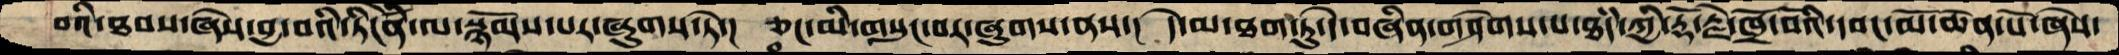བའི་ཐབས་ཞེས་བྱ་བའི་ཏིངེཛིན་ལ་སྙོམས་པར་ཞུགས་ཏེ་།  ཅང་མི་གསུང་བར་ཞུགས་ནས་།  དེ་མ་ཐག་ཏུ་དེ་བཞིན་གཤེགས་པ་ཐཾད་ཀྱི་རྡོ་རྗེ་ཁྲོ་བོའི་དབང་མོ་ཆེན་པོ་ཞེས་
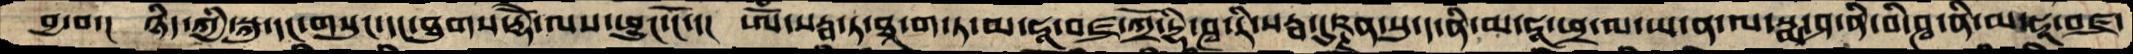བྱ་བ་།  ཉིད་ཀྱི་སྐུ་དང་གསུང་དང་ཐུགས་རྡོེ་ལས་ཕྱུང་ངོ་་།  ཨོཾ་སརྦ་ཏ་ཐཱ་ག་ཏ་མ་ཧཱ་བཛྲ་ཀྲོ་དྷི་ཤྭ་རི་སརྦ་དུཥྚན་སུ་ད་ནི་མ་ཧཱ་ཕྲ་མ་ཡ་ན་ལ་སྨ་ཤ་ནི་བི་ཤྭ་ནི་མ་ཧཱ་བཛྲ་
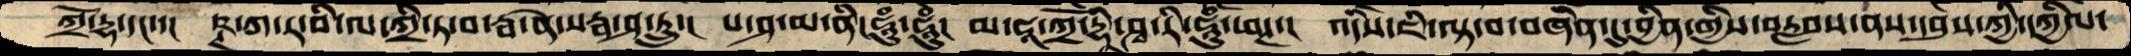ཀྲོ་དྷ་དང་།  ཥྚ་ཀ་ཏ་བི་ལ་ཀྲི་ཏ་བ་རྦ་ནེ་སརྦ་ཤ་ཏྲུང་།  པ་ཤ་མ་ནི་ཧཱུཾ་ཧཱུཾ།  མ་ཧ་ཱ་ཀྲོ་དྷཱི་ཤྭ་རི་ཧཱུཾ་ཕཊ་།  འདིས་ཇི་ལྟ་བ་བཞིན་དུ་བྱིན་གྱིས་བརླབས་ནས་དབུས་ཀྱི་དཀྱིལ་
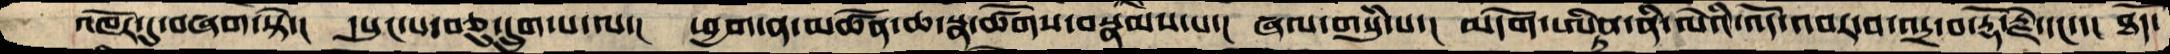འཁོར་དུ་བཞག་སྟེ་།  དཔུང་པ་བཅུ་དྲུག་པ་ལ་།  ཕྱག་ན་མཚོན་ཆ་སྣ་ཚོགས་བསྣམས་པ་།  ཞལ་གསུཾ་པ་། མདོག་ཨིནྡྲ་ནི་ལེའི་འདོ་འབར་བ་འདྲ་བ་རྡོ་རྗེ་དང་་། ཐཾད་
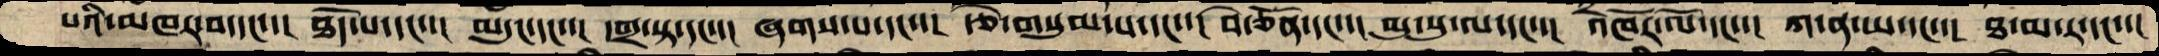པའི་མཁར་བ་དང་་།  ཐོད་པ་དང་་།  མདུང་དང་་།  དགྲ་སྟ་དང་་། ཞགས་པ་དང་་།  རྩེ་གསུམ་པ་དང་་།  བེ་ཅོན་དང་་།  མུ་སུ་ལ་དང་་། འཁོར་ལོ་དང་་།  ཀ་ན་ཡ་དང་་།  ཐ་མ་ར་དང་་།
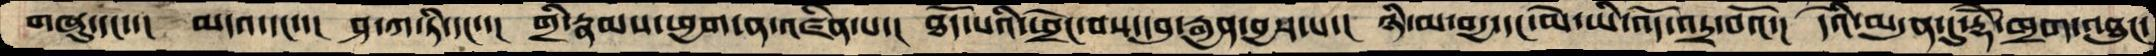གཞུ་དང་་།  མདའ་དང་་།  ཤ་ཀ་ཏི་དང་་།  གྲི་རྣམས་ཕྱག་ན་འཛིན་པ་།  ཐོད་པའི་ཕྲེང་བས་དབུ་རྒྱན་བྱས་པ་།  ཉི་མ་བདྱ་དང་མེ་ཡི་འོད་འདྲ་བའོ་།  དེའི་མདུན་དུ་རྡོེ་ཁྲག་འཐུང་
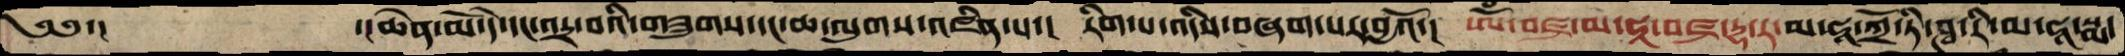༄༅་།    ་།ཆེན་མོ་དེ་དང་འདྲ་བའི་གཟུགས་དང་ཆ་ལུགས་འཛིན་པ་།  རིག་པ་འདིས་བཞག་པར་བྱའོ་།  ཨོཾ་བཛྲ་མ་ཧཱ་བཛྲ་དྷ་ར་མ་ཧཱ་ཀྲོ་ཏི་ཤྭ་རི་མ་ཧཱ་སྨ་
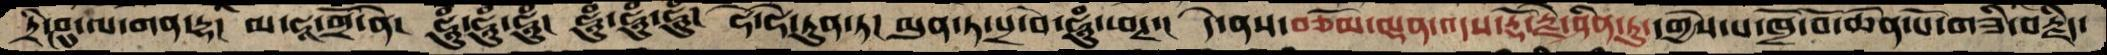ཏྲི་ཤུ་ལ་གན་དྷ།  མ་ཧཱ་གྲོ་ནེ་།  ཧཱུཾ་ཧཱུཾ་ཧཱུཾ་  ཧཱུཾ་ཧཱུཾ་ཧཱུཾ་ ཧེ་ཧེ་ཏུན་ཏ།  མུན་ཏ་པྲ་བེ་ཧཱུཾ་ཕཊ་།  དེ་ནས་བཅོམ་ལྡན་འདས་རྡོ་རྗེ་ཤིན་ཏུ་དགྱེས་པ་ཁྲོ་བོ་ཆེན་པོ་གཟི་བརྗིད་
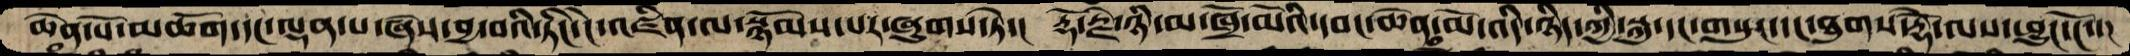ཆེན་པོ་མཆོག་དང་ལྡན་པ་ཞེས་བྱ་བའི་ཏིང་ངེ་འཛིན་ལ་སྙོམས་པར་ཞུགས་ཏེ་།  རྡོ་རྗེ་ཉི་མ་ཁྲོ་མོའི་དབང་ཆེན་མོ་འདི་ཉིད་ཀྱི་སྐུ་དང་གསུང་དང་ཐུགས་རྡོེ་ལས་ཕྱུང་ངོ་་།
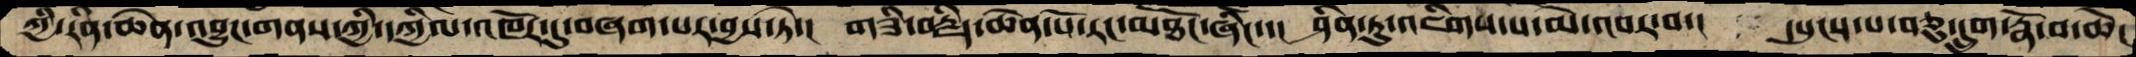ཀྱི་རིན་ཆེན་འབྱུང་གནས་ཀྱི་དཀྱིལ་འཁོར་དུ་བཞག་པར་བྱས་ཏེ་།  གཟི་བརྗིད་ཆེན་པོ་རང་མཐོང་ཞིང་་།  ཤིན་ཏུ་འཇིགས་པ་མེ་འབར་བ་།  དཔུངས་པ་བཅུ་དྲུག་རྣོ་བ་ཆེ།
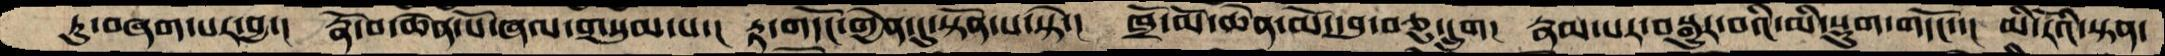ཏུ་བཞག་པར་བྱ་།  རྣོ་བ་ཆེན་པོ་ཞལ་གསུམ་པ་།  རྟ་གདོང་གྱེན་དུ་སྟོན་པ་སྟེ་།  ཁྲོ་མོ་ཆེན་མོ་དབུ་བཅུ་དྲུག།  རྣམ་པར་བསྒྱུར་བའི་མི་སྡུག་གདོང་་།  མི་རོའི་སྟན་
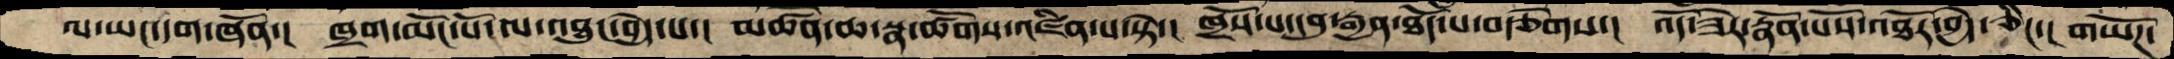ལ་ཡང་དག་ཞོན་།  ཁྲག་མོང་པོ་ལ་འཐུང་བྱདེ་པ་། མཚོན་ཆ་སྣ་ཚོགས་འཛིན་པ་སྟེ་། ཁྲོས་པ་དབུ་རྒྱན་ཐོད་པ་བརྩེགས་།  འོད་ཟེར་རྣོན་པོས་འཐོར་བྱེད་ཅིང་། གཡོཌ་
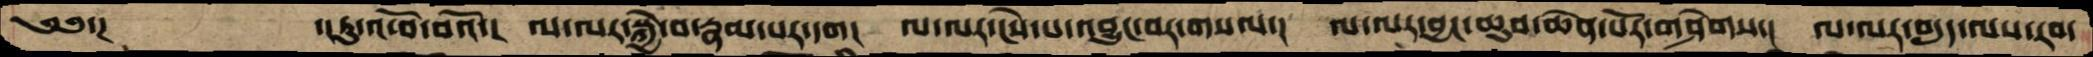༄༅་།    ་།ཏུ་འཕོ་བའོ་།  ལ་ལར་སྐྱེ་བ་རྣམ་པར་དག།  ལ་ལར་ངེས་པ་འབྱུང་བར་གསལ་།  ལ་ལར་བྱང་ཆུབ་ཆེན་པོར་གཤེགས་།  ལ་ལར་བདུད་ལས་རབ་
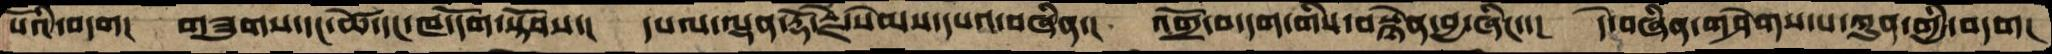པོའི་བདག།  གཟུགས་དང་ཚེ་དང་ཁ་དོག་སྟོབས་།  དཔལ་ལྡན་རྡོ་རྗེ་སེམས་དཔའ་བཞིན་།  འགྲོ་བ་དག་གིས་བསྙེན་བྱ་ཞིང་་།  དེ་བཞིན་གཤེགས་པ་ཀུན་གྱི་བདག།
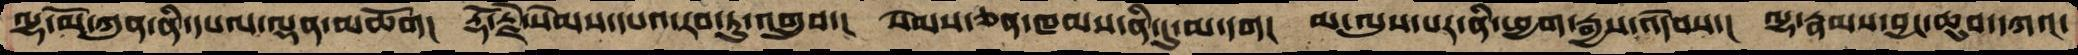ལྷ་མོ་ཀུན་ནི་དཔལ་ལྡན་མཆོག།  རྡོ་རྗེ་སེམས་དཔའ་རབ་ཏུ་འགྲུབ་།  སེམས་ཅན་ཁམས་ནི་དུ་མ་དག།  མ་ལུས་པར་ནི་ཕྱག་རྒྱས་འདེབས་།  ལྷ་རྣམས་བྱང་ཆུབ་དཀའ་
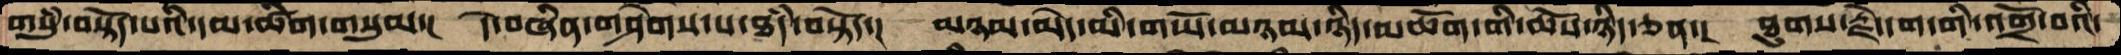གསུཾ་བསྟོད་པའི་དམ་ཚིག་གསུམ་།  དེ་བཞིན་གཤེགས་པ་ཐཾད་བསྟོད་།  མཉམ་མེད་མི་གཡོ་མཉམ་ཉིད་མཆོག་གི་ཆོས་ཉིད་ཅན་།  ཐུགས་རྗེ་དག་གི་འགྲོ་བའི་
